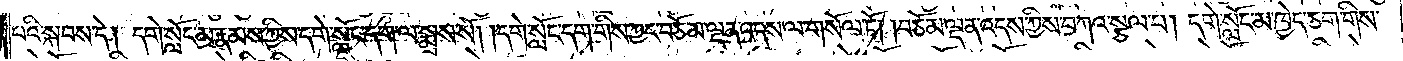པའི་སྐབས་དེ། དགེ་སློང་མ་རྣམས་ཀྱིས་དགེ་སློང་དག་ལ་སྨྲས་སོ། །དགེ་སློང་དག་གིས་ཀྱང་བཅོམ་ལྡན་འདས་ལ་གསོལ་ཏོ། །བཅོམ་ལྡན་འདས་ཀྱིས་བཀའ་སྩལ་པ། དགེ་སློང་མ་ཁྱེད་ཅག་གིས་
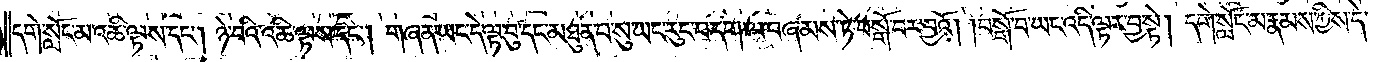དགེ་སློང་མ་འཆི་ལྟས་དང༌། ཉེ་བའི་འཆི་ལྟས་དང༌། གཞན་ཡང་དེ་ལྟ་བུ་དང་མཐུན་པ་སུ་ཡང་རུང་བ་དག་ལ་བཞམས་ཏེ་བསྒོ་བར་བྱའོ། །བསྒོ་བ་ཡང་འདི་ལྟར་བྱ་སྟེ། དགེ་སློང་མ་རྣམས་ཀྱིས་དེ་
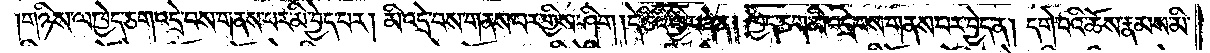གཉིས་ལ་ཁྱེད་ཅག་འདྲེ་བས་གནས་པར་མི་བྱེད་པར། མི་འདྲེ་བས་གནས་པར་གྱིས་ཤིག །དེ་ཅིའི་ཕྱིར་ཞེ་ན། ཁྱེད་ཅག་མི་འདྲེ་བས་གནས་པར་བྱེད་ན། དགེ་བའི་ཆོས་རྣམས་མི་
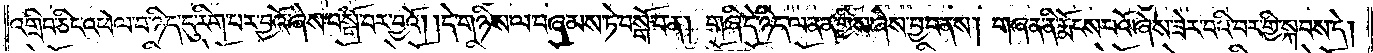འགྲིབ་ཅིང་འཕེལ་བ་ཉིད་དུ་རིག་པར་བྱའོ་ཞེས་བསྒོ་བར་བྱའོ། །དེ་གཉིས་ལ་བཞམས་ཏེ་བསྒོ་བ་ན། གཞི་དེ་ཉིད་ལ་ནན་གྱིས་ཞེས་བྱ་བ་ནས། གཞན་ནི་རྨོངས་པའོ་ཞེས་ཟེར་བའི་བར་གྱི་སྐབས་དེ།
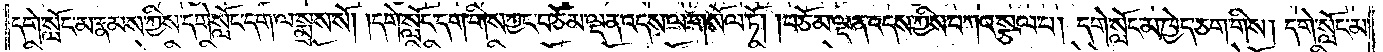དགེ་སློང་མ་རྣམས་ཀྱིས་དགེ་སློང་དག་ལ་སྨྲས་སོ། །དགེ་སློང་དག་གིས་ཀྱང་བཅོམ་ལྡན་འདས་ལ་གསོལ་ཏོ། །བཅོམ་ལྡན་འདས་ཀྱིས་བཀའ་སྩལ་པ། དགེ་སློང་མ་ཁྱེད་ཅག་གིས། དགེ་སློང་མ་
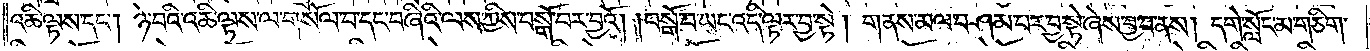འཆི་ལྟས་དང༌། ཉེ་བའི་འཆི་ལྟས་ལ་གསོལ་བ་དང་བཞིའི་ལས་ཀྱིས་བསྒོ་བར་བྱའོ། །བསྒོ་བ་ཡང་འདི་ལྟར་བྱ་སྟེ། གནས་མལ་བཤམ་པར་བྱ་སྟེ་ཞེས་བྱ་བ་ནས། དགེ་སློང་མ་གཅིག་
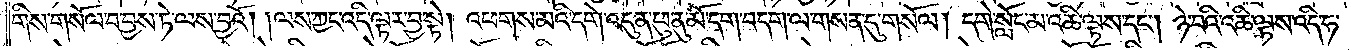གིས་གསོལ་བ་བྱས་ཏེ་ལས་བྱའོ། །ལས་ཀྱང་འདི་ལྟར་བྱ་སྟེ། འཕགས་མའི་དགེ་འདུན་ཕུ་ནུ་མོ་དག་བདག་ལ་གསན་དུ་གསོལ། དགེ་སློང་མ་འཆི་ལྟས་དང༌། ཉེ་བའི་འཆི་ལྟས་འདི་ཧ་
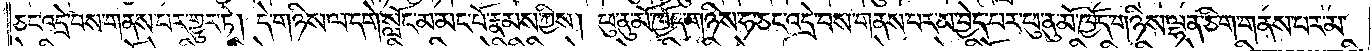ཅང་འདྲེ་བས་གནས་པར་གྱུར་ཏེ། དེ་གཉིས་ལ་དགེ་སློང་མ་མང་པོ་རྣམས་ཀྱིས། ཕུ་ནུ་མོ་ཁྱོད་གཉིས་ཧ་ཅང་འདྲེ་བས་གནས་པར་མ་བྱེད་པར་ཕུ་ནུ་མོ་ཁྱོད་གཉིས་ལྷན་ཅིག་གནས་པར་མ་
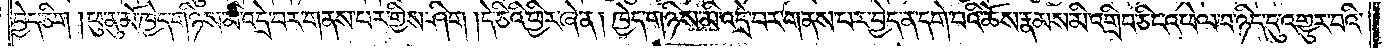བྱེད་ཅིག །ཕུ་ནུ་མོ་ཁྱེད་གཉིས་མི་འདྲེ་བར་གནས་པར་གྱིས་ཤིག །དེ་ཅིའི་ཕྱིར་ཞེ་ན། ཁྱེད་གཉིས་མི་འདྲེ་བར་གནས་པར་བྱེད་ན་དགེ་བའི་ཆོས་རྣམས་མི་འགྲིབ་ཅིང་འཕེལ་བ་ཉིད་དུ་འགྱུར་བའི་
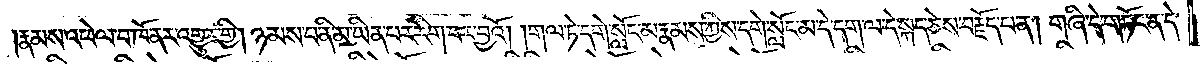།རྣམས་འཕེལ་བ་ཁོ་ནར་འགྱུར་གྱི། ཉམས་པ་ནི་མ་ཡིན་པར་རིག་པར་བྱའོ། །གལ་ཏེ་དགེ་སློང་མ་རྣམས་ཀྱིས་དགེ་སློང་མ་དེ་དག་ལ་དེ་སྐད་ཅེས་བརྗོད་པ་ན། གཞི་དེ་གཏོང་ན་དེ་
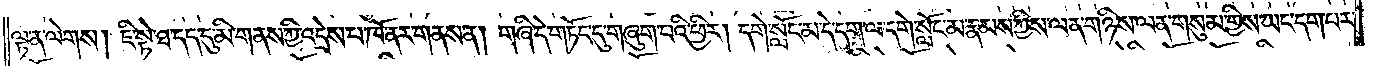ལྟ་ན་ལེགས། ཇི་སྟེ་ཐ་དད་དུ་མི་གནས་ཀྱི་འདྲེས་པ་ཁོ་ནར་གནས་ན། གཞི་དེ་གཏོང་དུ་གཞུག་པའི་ཕྱིར། དགེ་སློང་མ་དེ་དག་ལ་དགེ་སློང་མ་རྣམས་ཀྱིས་ལན་གཉིས་ལན་གསུམ་གྱིས་ཡང་དག་པར་
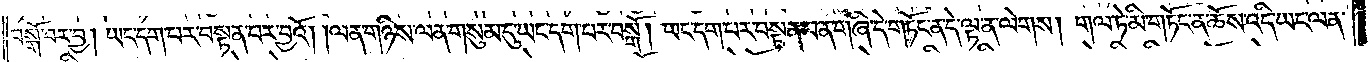བསྒོ་བར་བྱ། ཡང་དག་པར་བསྟན་པར་བྱའོ། །ལན་གཉིས་ལན་གསུམ་དུ་ཡང་དག་པར་བསྒོ། ཡང་དག་པར་བསྟན་པ་ན་གཞི་དེ་གཏོང་ན་དེ་ལྟ་ན་ལེགས། གལ་ཏེ་མི་གཏོང་ན་ཆོས་འདི་ཡང་ལན་
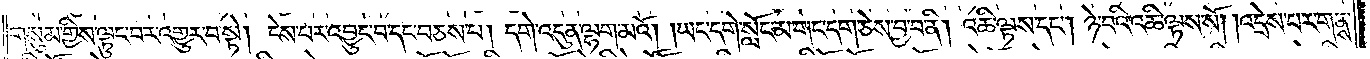གསུམ་གྱིས་ལྟུང་བར་འགྱུར་བ་སྟེ། ངེས་པར་འབྱུང་བ་དང་བཅས་པ། དགེ་འདུན་ལྷག་མའོ། །ཡང་དགེ་སློང་མ་གང་དག་ཅེས་བྱ་བ་ནི། འཆི་ལྟས་དང༌། ཉེ་བའི་འཆི་ལྟས་སོ། །འདྲེས་པར་གནས་
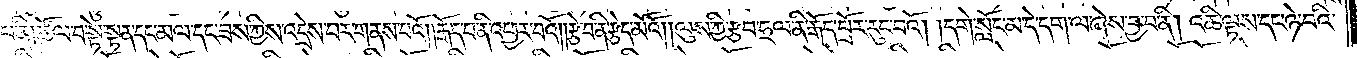པ་ནི། ཚོལ་བ་སྟེ་སྟན་དང་མལ་དང་ཟས་ཀྱིས་འདྲེས་པར་གནས་པའོ། །རྒོད་པ་ནི་འཕྱར་བའོ། །རྩེ་བ་ནི་རྩེད་མའོ། །ལུས་ཀྱི་རྩབ་ཧྲལ་ནི་རྒོད་བྲོར་རུང་བའོ། །དགེ་སློང་མ་དེ་དག་ལ་ཞེས་བྱ་བ་ནི། འཆི་ལྟས་དང་ཉེ་བའི་
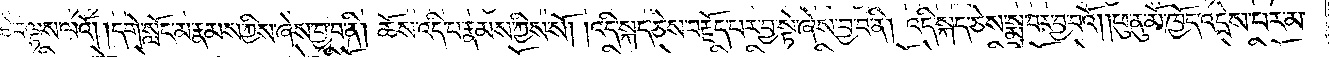འཆི་བལྟས་ལའོ། །དགེ་སློང་མ་རྣམས་ཀྱིས་ཞེས་བྱ་བ་ནི། ཆོས་འདི་པ་རྣམས་ཀྱིས་སོ། །འདི་སྐད་ཅེས་བརྗོད་པར་བྱ་སྟེ་ཞེས་བྱ་བ་ནི། འདི་སྐད་ཅེས་སྨྲ་བར་བྱ་བའོ། །ཕུ་ནུ་མོ་ཁྱོད་འདྲེས་པར་མ་
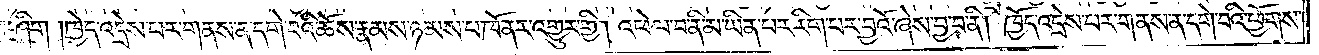གནས་ཤིག །ཁྱེད་འདྲེས་པར་གནས་ན་དགེ་བའི་ཆོས་རྣམས་ཉམས་པ་ཁོ་ནར་འགྱུར་གྱི། འཕེལ་བ་ནི་མ་ཡིན་པར་རིག་པར་བྱའོ་ཞེས་བྱ་བ་ནི། ཁྱོད་འདྲེས་པར་གནས་ན་དགེ་བའི་ཕྱོགས་
